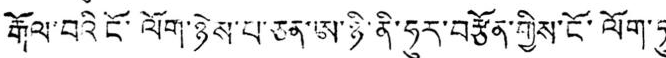རྒོལ་བའི ངོ་ལོག་ཉེས་པ་ཅན་ཨ་ཉི་ནི་ཧུར་བརྩོན་གྱིས་ངོ་ལོག་ཏུ་
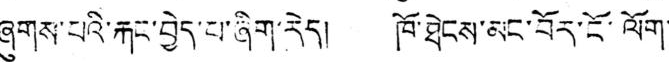ཞུགས་པའི་རྐང་བྱེད་པ་ཞིག་རེད། ཁོ་ཐེངས་མང་བོར་ངོ་ལོག་
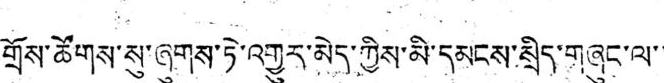གྲོས་ཚོགས་སུ་ཞུགས་ཏེ་འགྱུར་མེད་ཀྱིས་མི་དམངས་སྲིད་གཞུང་ལ་་
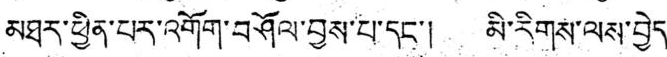མཐར་ཕྱིན་པར་འགོག་བཤོལ་བྱས་པ་དང་། མི་རིགས་ལས་བྱེད་
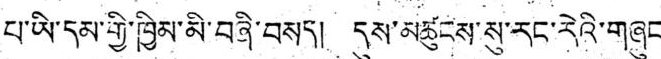པ་ཡི་དམ་གྱི་ཁྱིམ་མི་བཞི་བསད། དུས་མཚུངས་སུ་རང་རེའི་གཞུང་
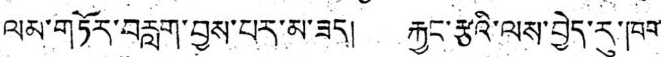ལམ་གཏོར་བརླག་བྱས་པར་མ་ཟད། རྐྱང་རྩའི་ལས་བྱེད་རུ་ཁག་
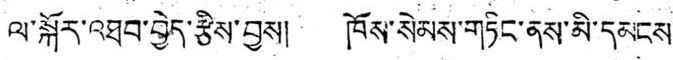ལ་སྐོར་འཐབ་བྱེད་རྩིས་བྱས། ཁོས་སེམས་གཏིང་ནས་མི་དམངས་
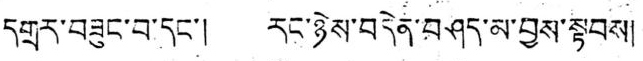དགྲར་བཟུང་བ་དང་། རང་ཉེས་བདེན་བཤད་མ་བྱས་སྟབས།
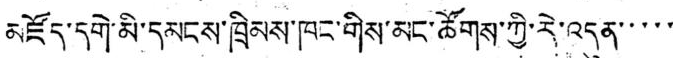མཛོད་དགེ་མི་དམངས་ཁྲིམས་ཁང་གིས་མང་ཚོགས་ཀྱི་རེ་འདུན་་་་་
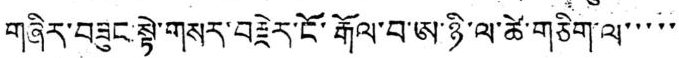གཞིར་བཟུང་སྟེ་གསར་བརྗེར་ངོ་རྒོལ་བ་ཨ་ཉི་ལ་ཚེ་གཅིག་ལ་་་་་
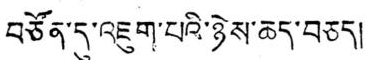བཙོན་དུ་འཇུག་པའི་ཉེས་ཆད་བཅད།
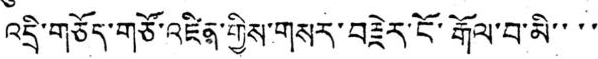འདྲི་གཅོད་གཙོ་འཛིན་གྱིས་གསར་བརྗེར་ངོ་རྒོལ་བ་མི་་་་
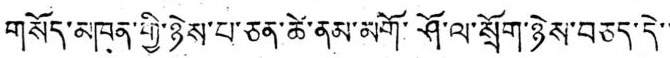གསོད་མཁན་གྱི་ཉེས་པ་ཅན་ཚེ་ནམ་མགོ་ཤོ་ལ་སྲོག་ཉེས་བཅད་དེ་་
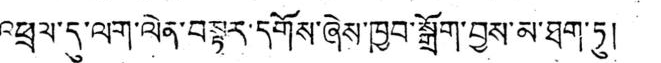འཕྲལ་དུ་ལག་ལེན་བསྟར་དགོས་ཞེས་ཁྱབ་སྒྲོག་བྱས་མ་ཐག་ཏུ།
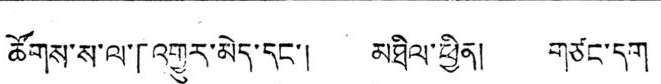ཚོགས་ས་ལ་「འགྱུར་མེད་དང་། མཐིལ་ཕྱིན། གཙང་དག
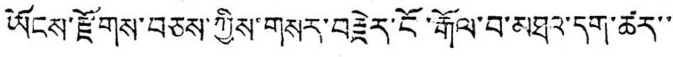ཡོངས་རྫོགས་བཅས་ཀྱིས་གསར་བརྗེར་ངོ་རྒོལ་བ་མཐའ་དག་ཚར་་
